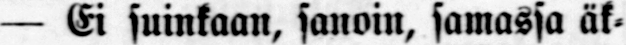— Ei suinkaan, sanoin, samassa äk-
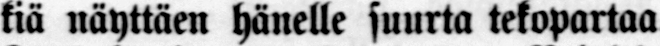kiä näyttäen hänelle suurta tekopartaa
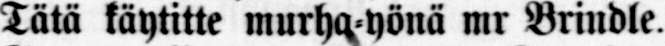Tätä käytitte murha- yönä mr Brindle.
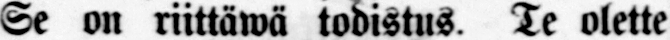Se on riittäwä todistus. Te olette
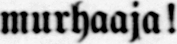murhaaja!
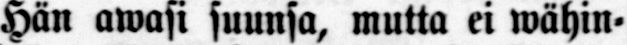Hän awasi suunsa, mutta ei wähin-
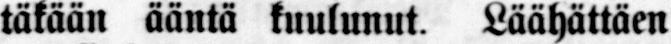täkään ääntä kuulunut. Läähättäen
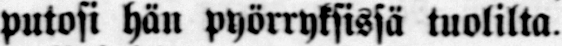putosi hän pyörryksissä tuolilta.
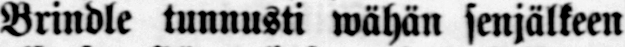Brindle tunnusti wähän senjälkeen
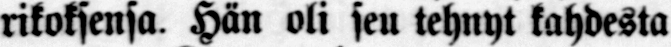rikoksensa. Hän oli seu tehnyt kahdesta
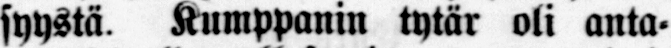syystä. Kumppanin tytär oli anta-
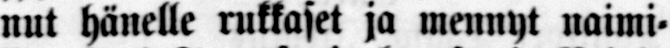nut hänelle rukkaset ja mennyt naimi-
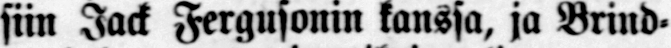siin Jack Fergusonin kanssa, ja Brind-
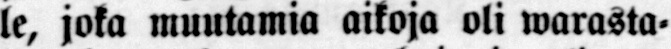le, joka muutamia aikoja oli warasta-
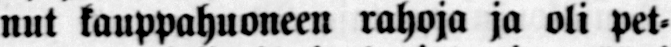nut kauppahuoneen rahoja ja oli pet-
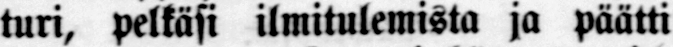turi, pelkäsi ilmitulemista ja päätti
